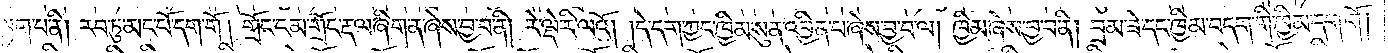ལྡན་འདས་རྣམས་ནི། མཁྱེན་བཞིན་དུ་རྨེད་པར་མཛད་པ་སྟེ་ཞེས་བྱ་བ་ལ་སོགས་པ་ཡང་སྔ་མ་བཞིན་ནོ། །ངའི་ཉན་ཐོས་ཀྱིས་འདུལ་བ་ལ་བསླབ་པའི་གཞི་འདི་ལྟར་གདོན་པར་བྱ་སྟེ། དགེ་སློང་རབ་ཏུ་
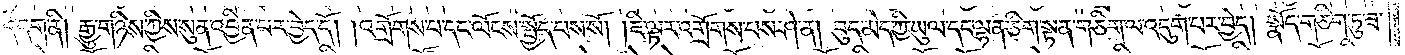མང་པོ་དག །གྲོང་ངམ། གྲོང་རྡལ་ཞིག་ན་ཉེ་བར་བརྟེན་ཅིང་གནས་པར་གྱུར་ལ། དེ་དག་ཀྱང་ཁྱིམ་སུན་འབྱིན་པ། སྡིག་པའི་ཆོས་ཀུན་ཏུ་སྤྱོད་པར་རིག་ཅིང༌། དེ་དག་གིས་ཁྱིམ་དག་སུན་ཕྱུང་བར་མཐོང་
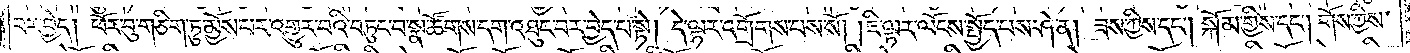ངམ། ཐོས་སམ། རབ་ཏུ་ཤེས་སམ། དེ་དག་སྡིག་པ་ཀུན་ཏུ་སྤྱོད་པར་མཐོང་ངམ། ཐོས་སམ། རབ་ཏུ་ཤེས་ན། དགེ་སློང་དེ་དག་ལ་དགེ་སློང་རྣམས་ཀྱིས་འདི་སྐད་ཅེས། ཚེ་དང་ལྡན་པ་དག། ཁྱིམ་སུན་
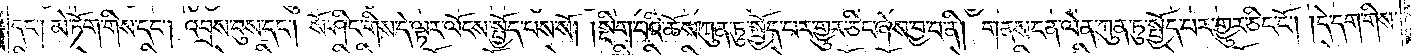འབྱིན་པ། སྡིག་པའི་ཆོས་ཀུན་ཏུ་སྤྱོད་པ་དག་ཡིན་ཏེ། ཁྱེད་ཀྱི་ཁྱིམ་དག་སུན་ཕྱུང་བར་ཡང་མཐོང་ཞིང་ཐོས་ལ་རབ་ཏུ་ཤེས། ཁྱེད་སྡིག་པ་ཀུན་ཏུ་སྤྱོད་པར་ཡང་མཐོང་ཞིང་ཐོས་ལ་རབ་ཏུ་ཤེས་ཀྱི། ཚེ་དང་
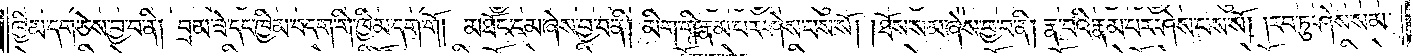ལྡན་པ་དག །ཁྱེད་འདི་ན་གནས་པས་ཆོག་གི། གནས་འདི་ནས་དེངས་ཤིག་ཅེས་བསྒོ་བར་བྱའོ། །གལ་ཏེ་དེ་དག་དགེ་སློང་རྣམས་ལ་འདི་སྐད་ཅེས། ཚེ་དང་ལྡན་པ་དག །འདི་ན་དགེ་སློང་ཁ་ཅིག་འདུན་
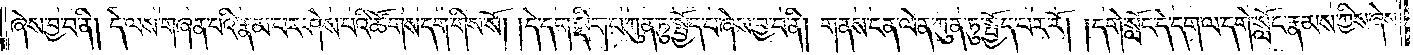པས་འགྲོ་བ། ཞེ་སྡང་གིས་འགྲོ་བ། གཏི་མུག་གིས་འགྲོ་བ། འཇིགས་པས་འགྲོ་བ་དག་ཡིན་ཏེ། འདི་ལྟར། ལྟུང་བ་འདྲ་བ་ཁོ་ན་ལས། དགེ་སློང་ཁ་ཅིག་ནི། སྐྲོད་པར་བྱེད། ཁ་ཅིག་ནི། སྐྲོད་པར་མི་བྱེད་
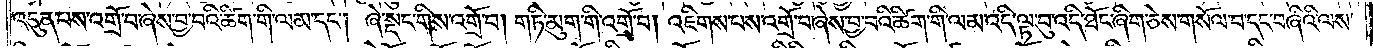བ༑ ཞེ་སྡང་གིས་འགྲོ་བ། གཏི་མུག་གིས་འགྲོ་བ། འཇིགས་པས་འགྲོ་བ་དག་ཡིན་ཏེ། འདི་ལྟར། ལྟུང་བ་འདྲ་བ་ཁོ་ན་ལས། དགེ་སློང་ཁ་ཅིག་ནི། སྐྲོད་པར་བྱེད། ཁ་ཅིག་ནི། སྐྲོད་པར་མི་བྱེད་དོ། །ཞེས་
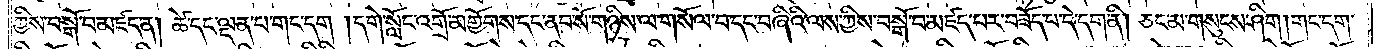མ་ཟེར་ཅིག །དེ་ཅིའི་ཕྱིར་ཞེ་ན། དགེ་སློང་དེ་དག་ནི། འདུན་པས་འགྲོ་བ་མ་ཡིན། ཞེ་སྡང་གིས་འགྲོ་བ་མ་ཡིན། གཏི་མུག་གིས་འགྲོ་བ་མ་ཡིན། འཇིགས་པས་འགྲོ་བ་མ་ཡིན་གྱི། འདི་ལྟར། ཚེ་དང་ལྡན་
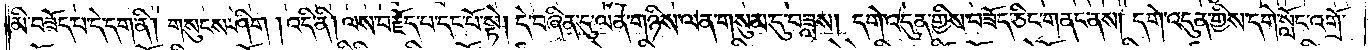བདག་ཉིད་ཁྱིམ་སུན་འབྱིན་པ། སྡིག་པའི་ཆོས་ཀུན་ཏུ་སྤྱོད་པ་དག་ཡིན་ཏེ། ཁྱེད་ཉིད་ཀྱིས་ཁྱིམ་སུན་ཕྱུང་བར་ཡང་མཐོང་ཞིང་ཐོས་ལ་རབ་ཏུ་ཤེས། ཁྱེད་སྡིག་པ་ཀུན་ཏུ་སྤྱོད་པར་ཡང་མཐོང་ཞིང་ཐོས་
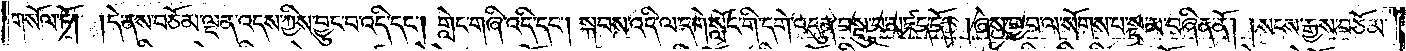ན་ལེགས། གལ་ཏེ་མི་གཏོང་ན། དགེ་འདུན་ལྷག་མའོ། །དགེ་སློང་ཞེས་བྱ་བ་ནི། འགྲོ་མགྱོགས་དང་ནབ་སོ་དག་གམ། གཞན་ཡང་དེ་ལྟ་བུ་གང་ཡིན་པའོ། །རབ་ཏུ་མང་པོ་དག་ཅེས་བྱ་བ་ནི། གཉིས་ལས་
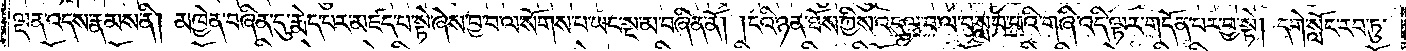ལྡན་འདས་རྣམས་ནི། མཁྱེན་བཞིན་དུ་རྨེད་པར་མཛད་པ་སྟེ་ཞེས་བྱ་བ་ལ་སོགས་ཡང་སྔ་མ་བཞིན་ནོ། །ངའི་ཉན་ཐོས་ཀྱིས་འདུལ་བ་ལ་བསླབ་པའི་གཞི་འདི་ལྟར་གདོད་པར་བྱ་སྟེ། དགེ་སློང་རབ་ཏུ་
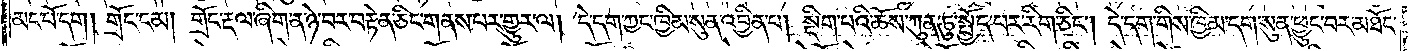མང་པོ་དག གྲོང་ངམ། གྲོང་རྡལ་ཞིག་ན་ཉེ་བར་བརྟེན་ཅིང་གནས་པར་གྱུར་ལ། དེ་དག་ཀྱང་ཁྱིམ་སུན་འབྱིན་པ། སྡིག་པའི་ཆོས་ཀུན་ཏུ་སྤྱོད་པར་རིག་ཅིང་། དེ་དག་གིས་ཁྱིམ་དག་སུན་ཕྱུང་བར་མཐོང་
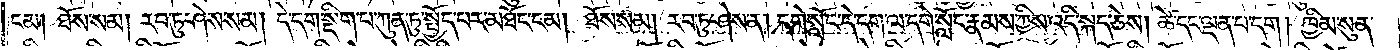ངམ། ཐོས་སམ། རབ་ཏུ་ཤེས་སམ། དེ་དག་སྡིག་པ་ཀུན་ཏུ་སྤྱོད་པར་མཐོང་ངམ། ཐོས་སམ། རབ་ཏུ་ཤེས་ན། དགེ་སློང་དེ་དག་ལ་དགེ་སློང་རྣམས་ཀྱིས་འདི་སྐད་ཅེས། ཚེ་དང་ལྡན་པ་དག ། ཁྱིམ་སུན་
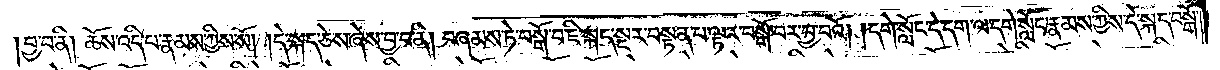བྱ་བ་ནི། ཆོས་འདི་པ་རྣམས་ཀྱིས་སོ། །དེ་སྐད་ཅེས་ཞེས་བྱ་བ་ནི། བཞམས་ཏེ་བསྒོ་བ་ཇི་སྐད་སྔར་བསྟན་པ་ལྟར་བསྒོ་བར་བྱ་བའོ། །དགེ་སློང་དེ་དག་ལ་དགེ་སློང་རྣམས་ཀྱིས་དེ་སྐད་བསྒོ་
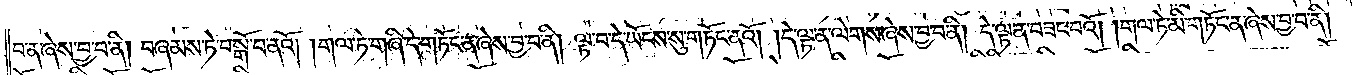བ་ན་ཞེས་བྱ་བ་ནི། བཞམས་ཏེ་བསྒོ་བ་ནའོ། །གལ་ཏེ་གཞི་དེ་གཏོང་ན་ཞེས་བྱ་བ་ནི། ལྟ་བ་དེ་ཡོངས་སུ་གཏོང་ནའོ། །དེ་ལྟ་ན་ལེགས་ཞེས་བྱ་བ་ནི། དེ་ལྟ་ན་བཟང་བའོ། །གལ་ཏེ་མི་གཏོང་ན་ཞེས་བྱ་བ་ནི།
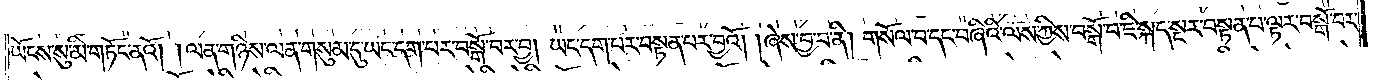ཡོངས་སུ་མི་གཏོང་ནའོ། །ལན་གཉིས་ལན་གསུམ་དུ་ཡང་དག་པར་བསྒོ་བར་བྱ། ཡང་དག་པར་བསྟན་པར་བྱའོ། །ཞེས་བྱ་བ་ནི། གསོལ་བ་དང་བཞིའི་ལས་ཀྱིས་བསྒོ་བ་ཇི་སྐད་སྔར་བསྟན་པ་ལྟར་བསྒོ་བར་
